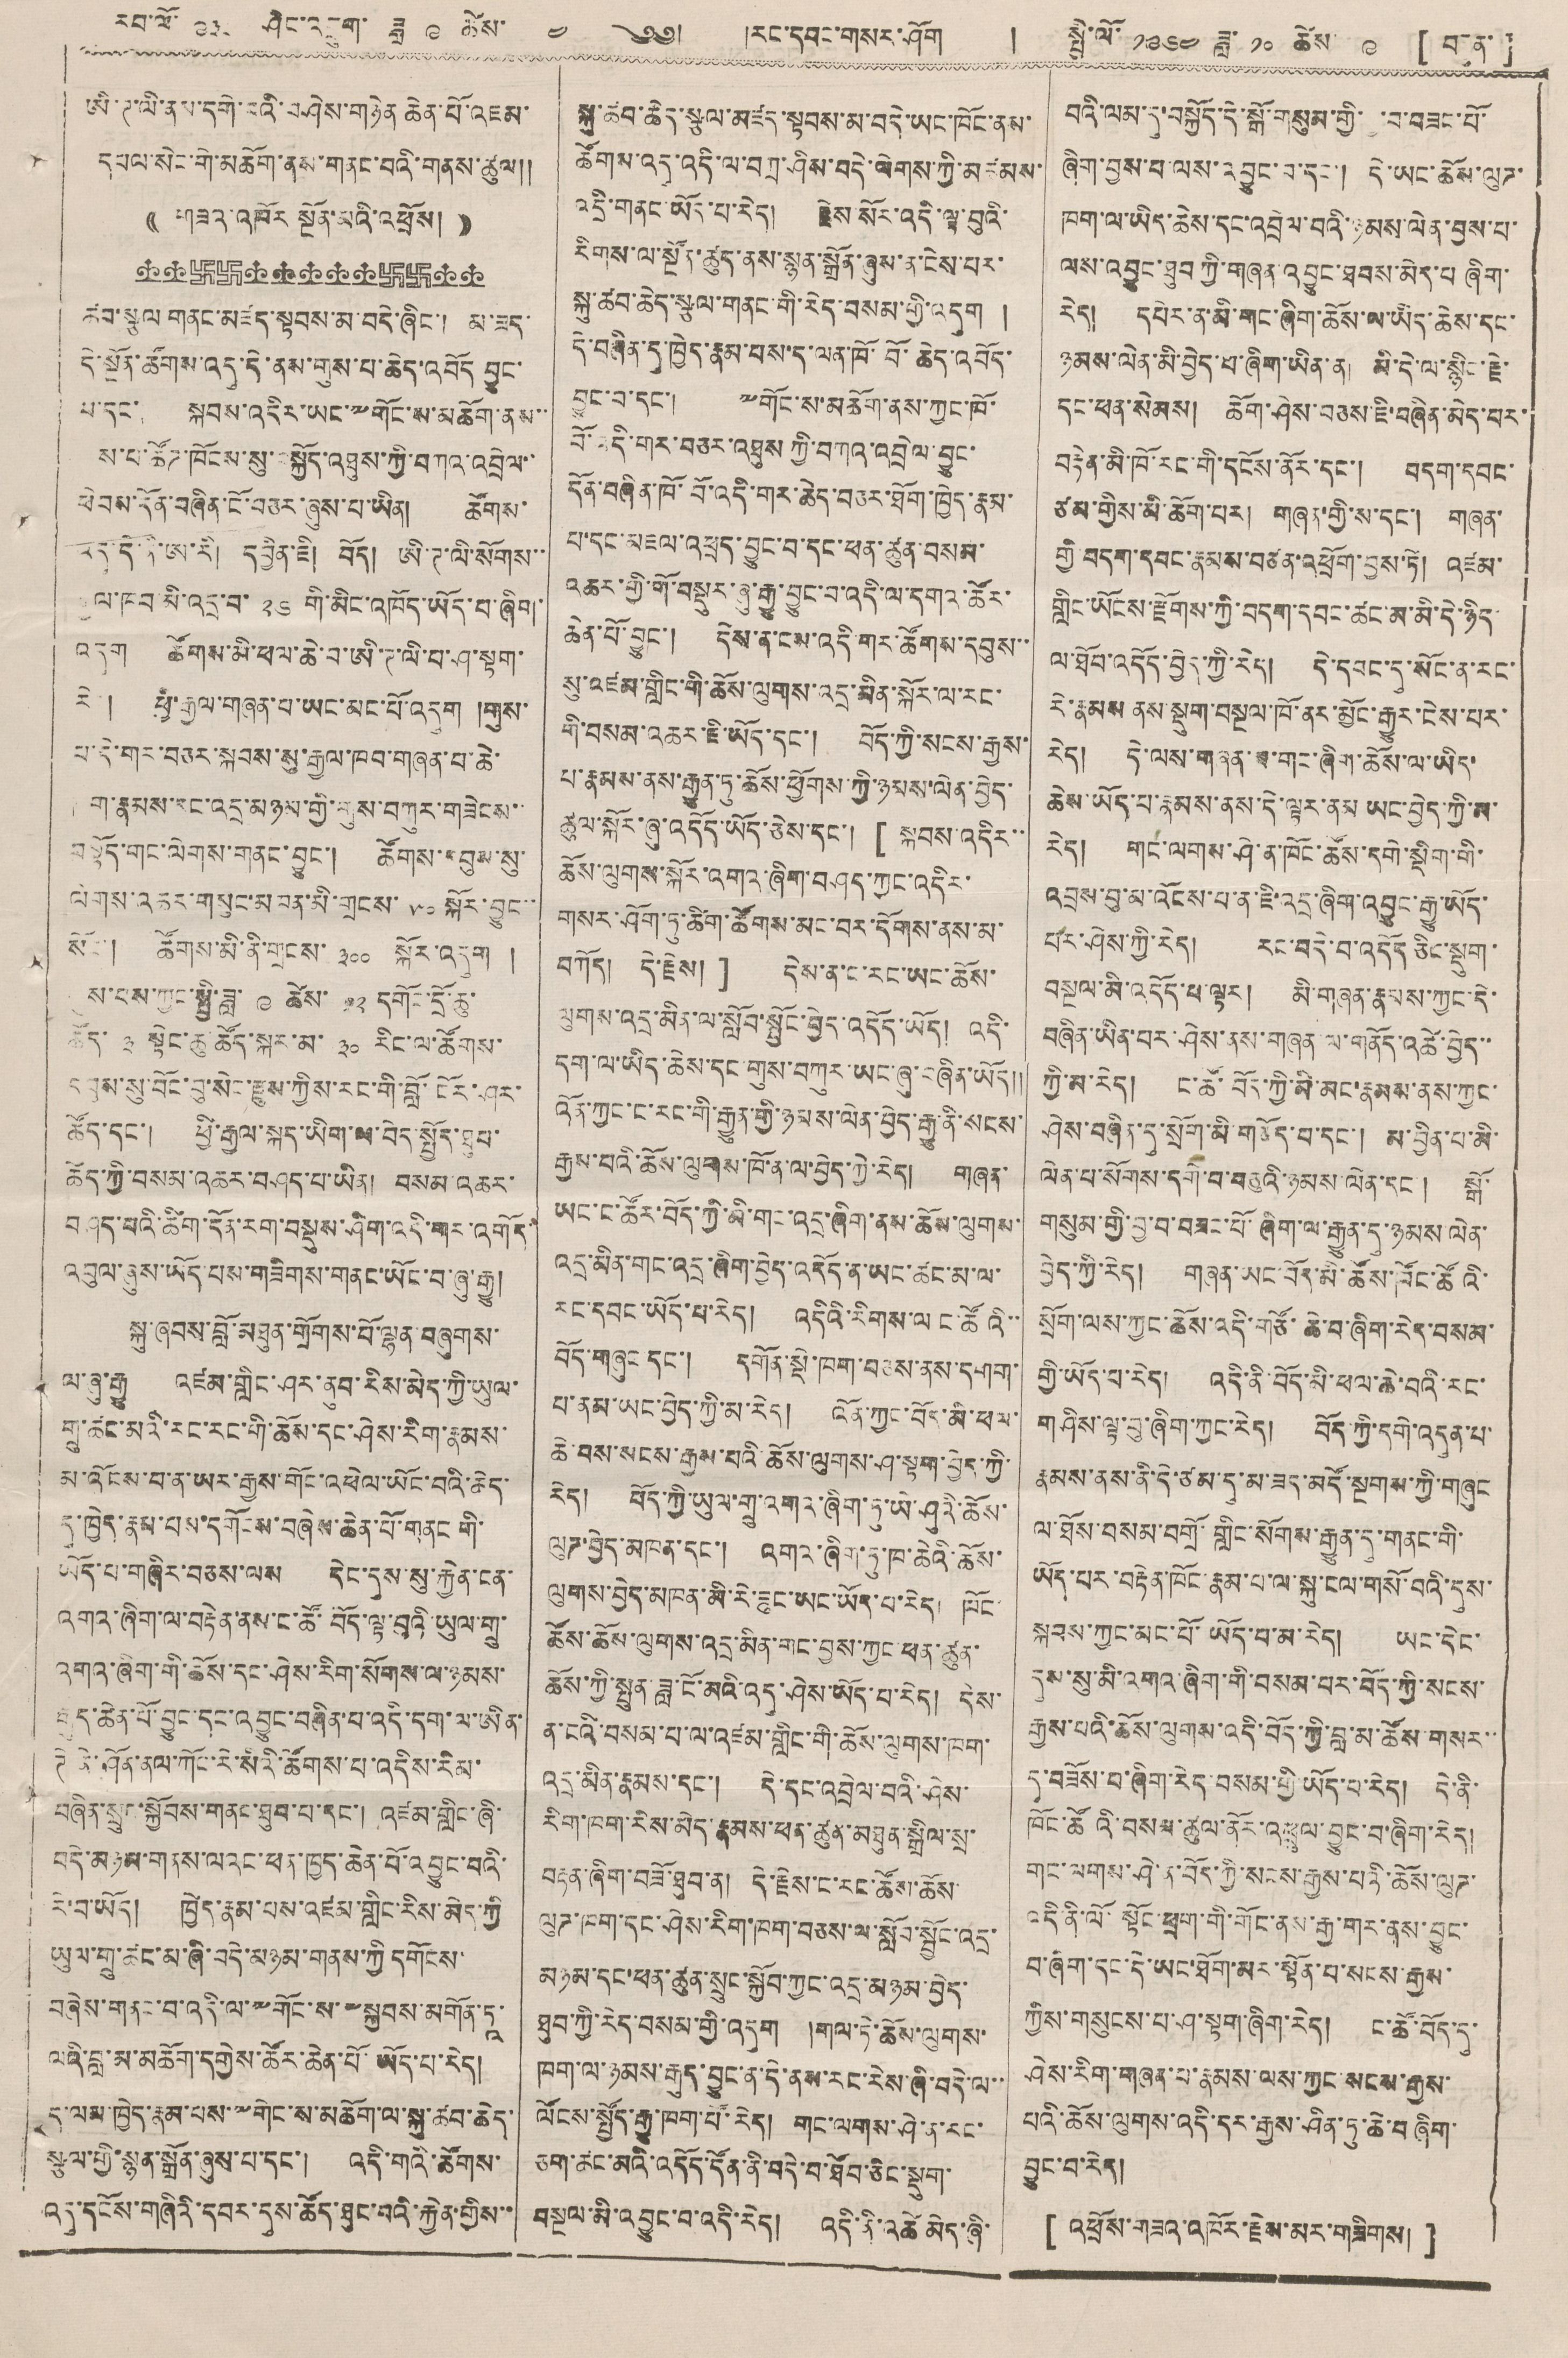རབ་ལོ་ ༩༣༨ ཤིང་འབྲུག་ ཟླ་ ༩ ཚེས ༤ ༄༅། །རང་དབང་གསར་ཤོག །སྤྱི་ལོ་ ༡༩༦༤ ཟླ་ ༡༠ ཚེས་ ༩ [ བདུན་ ]
ཨི་ཊ་ལི་ནས་དགེ་བའི་བཤེས་གཉེན ཆེན་པོ་འཇམ་
དཔལ་སེང་གེ་མཆོག་ནས་གནང་བའི་གནས་ཚུལ།།
(( གཟའ་འཁོར སྔོན་མའི་འཕྲོས། ))
ཚབ་ལྩལ གནང་མཛད་སྟབས་མ་བདེ་ཞིང་། མ་ཟད་
དེ་སྔོན་ཚོགས་འདུ་དེ་ནས་གུས་པ་ཆེད་འབོད བྱུང་
པ་དང་། སྐབས་འདིར་ཡང་༸གོང་ས་མཆོག་ནས་་
ས་པ་ཚོཊ་ཁོངས་སུ་བསྐྱོད་འཐུས་ཀྱི་བཀའ་འབྲེལ་་
ཕེབས་དོན་བཞིན་ངོ་བཅར་ཞུས་པ་ཡིན། ཚོགས་
འདུ་དེ་ནི་ཨ་རི། དབྱིན་ཇི། བོད། ཨི་ཊ་ལི་སོགས་་
རྒྱལ་ཁབ་མི་འདྲ་བ་ ༢༦ གི་མིང་འཁོད་ཡོད་པ་ཞིག་
འདུག ཚོགས་མི་ཕལ་ཆེ་བ་ཨི་ཊ་ལི་པ་ཤ་སྟག་
རེད། ཕྱི་རྒྱལ་གཞན་པ་ཡང་མང་པོ་འདུག །གུས་
པ་དེ་གར་བཅར་སྐབས་སུ་རྒྱལ་ཁབ་གཞན་པ་ཆེ་
ག་རྣམས་དང་འདྲ་མཉམ་གྱི་གུས་བཀུར་གཟེངས་་
བསྟོད་གང་ལེགས་གནང་བྱུང་། ཚོགས་དབུས་སུ་
ལེགས་འཆར་གསུང་མཁན་མི་གྲངས་ ༥༠ སྐོར་བྱུང་་
སོང་། ཚོགས་མི་ནི་གྲངས་ ༣༠༠ སྐོར་འདུག །
དུས་པས་ཀྱང་སྤྱི་ཟླ་ ༩ ཚེས་ ༡༢ དགོང་དྲི་ཆུ་
ཚོད་ ༣ སྟེང་ཆུ་ཚོད་སྐར་མ་ ༣༠ རིང་ལ་ཚོགས་
དབུས་སུ་བོང་བུ་སེང་རྫུས་ཀྱིས་རང་གི་བློ་ངོར་ཤར་
ཚོད་དང་། ཕྱི་རྒྱལ་སྐད་ཡིག་བདེ་སྤྱོད་ཐུབ་
ཆོད་ཀྱི་བསམ་འཆར་བཤད་པ་ཡིན། བསམ འཆར་
བཤད་པའི་ཚོག་དོན་རག་བསྡུས་ཤིག་འདི་གར་འགོད་
འབུལ་ཞུས་ཡོད་པས་གཟིགས་གནང་ཡོང་བ་ཞུ་རྒྱུ།
སྐུ་ཞབས་བློ་མཐུན་གྲོགས་པོ་ལྷན་བཞུགས་
ལ་ཞུ་རྒྱུ འཛམ་གླིང་ཤར་ནུབ་རིས་མེད་ཀྱི་ཡུལ་
གྲུ་ཚང་མའི་རང་རང་གི་ཆོས་དང་ཤེས་རིག་རྣམས་
མ་འོངས་པ་ན་ཡར་རྒྱས་གོང་འཕེལ་ཡོང་བའི་ཆེད་
དུ་ཁྱེད་རྣམ་པས་དགོངས་བཞེས་ཆེན་པོ་གནང གི་
ཡོད་པ་གཞིར་བཅས་ལས དེང་དུས་སུ་རྐྱེན་ངན་
འགའ་ཞིག་ལ་བརྟེན་ནས་ང་ཚོ་བོད་ལྟ་བུའི་ཡུལ་གྲུ་
འགའ་ཞིག་གི་ཆོས་དང་ཤེས་རིག་སོགས་ལ་ཉམས་
རྒུད་ཆེན་པོ་བྱུང་དང་འབྱུང་བཞིན་པ་འདི་དག་ལ་ཨིན་
ཊེ་ནེ་ཤོན་ནལ་ཀོང་རེ་སིའི་ཚོགས་པ་འདིས་རིམ་
བཞིན་སྲུང་སྐྱོབས་གནང་ཐུབ་པ་དང་། འཛམ་གླིང་ཞི་
བདེ་མཉམ་གནས་ལའང་ཕན་ཁྱད་ཆེན་པོ་འབྱུང་བའི་
རེ་བ་ཡོད། ཁྱེད་རྣམ་པས་འཛམ་གླིང་རིས་མེད་ཀྱི
ཡུལ་གྲུ་ཚང་མ་ཞི་བདེ་མཉམ་གནས་ཀྱི དགོངས་
བཞེས་གནང་བ་འདི་ལ་༸གོང་ས་༸སྐྱབས་མགོན་ཏཱ་
ལའི་བླ་མ་མཆོག་དགྱེས་ཚོར་ཆེན་པོ་ཡོད་པ་རེད།
ད་ལམ་ཁྱེད་རྣམ་པས་༸གོང་ས་མཆོག་ལ་སྐུ་ཚབ་ཆེད་
སྩལ་གྱི་སྙན་སྒྲོན་ཞུས་པ་དང་། འདི་གའི་ཚོགས་
འདུ་དངོས་གཞིའི་དབར་དུས་ཚོད་ཐུང་བའི་རྐྱེན་གྱིས་་
སྐུ་ཚབ་ཆེད་སྩལ་མཛད་སྟབས་མ་བདེ་ཡང་ཁོང་ནས་
ཚོགས་འདུ་འདི་ལ་བཀྲ་ཤིས་བདེ་ལེགས་ཀྱི་མཚམས་
འདྲི་གནང་ཡོད་པ་རེད། རྗེས་སོར་འདི་ལྟ་བུའི་
རིགས་ལ་སྔོན་ཚུད་ནས་སྙན་སྒྲོན་ཞུས་ན་ངེས་པར་
སྐུ་ཚབ་ཆེད་སྩལ་གནང་གི་རེད་བསལ་གྱི་འདུག །
དེ་བཞིན་དུ་ཁྱེད་རྣམ་པས་ད་ལན་ཁོ་བོ་ཆེད་འབོད་
བྱུང་བ་དང་། ༸གོང་ས་མཆོག་ནས་ཀྱང་ཁོ་
བོ་འདི་གར་བཅར་འཐུས ཀྱི་བཀའ་འབྲེལ་བྱུང་
དོན་བཞིན་ཁོ་བོ་འདི་གར་ཆེད་བཅར་ཐོག་ཁྱེད་རྣམ་
པ་དང་འཇམ་འཕྲད་བྱུང་བ་དང་ཕན་ཚུན་བསམ་
འཆར་གྱི་གོ་བསྡུར་ཞུ་རྒྱུ་བྱུང་བ་འདི་ལ་དགའ་ཚོར་
ཆེན་པོ་བྱུང་། དེས་ན་ངས་འདི་གར་ཚོགས་དབུས་་
སུ་འཛམ་གླིང་གི་ཆོས་ལུགས་འདྲ་མིན་སྐོར་ལ་རང་
གི་བསམ་འཆར་ཇི་ཡོད་དང་། བོད་ཀྱི་སངས་རྒྱས་
པ་རྣམས་ནས་རྒྱུན་ཏུ་ཆོས་ཕྱོགས་ཀྱི་ཉམས་ལེན་བྱེད་
ཚུལ་སྐོར་ཞུ་འདོད་ཡོད་ཅེས་དང་། [ སྐབས་འདིར་་
ཆོས་ལུགས་སྐོར་འགའ་ཞིག་བཤད་ཀྱང་འདིར་
གསར་ཤོག་ཏུ་ཚིག་ཚོགས་མང་བར་དོགས་ནས་མ་
བཀོད། དེ་རྗེས། ] དེས་ན་ང་རང་ཡང་ཆོས་
ལུགས་འདྲ་མིན་ལ་སློབ་སྦྱོང་བྱེད་འདོད་ཡོད། འདི་
དག་ལ་ཡིད་ཆེས་དང་གུས་བཀུར་ཡང་ཞུ་བཞིན་ཡོད།།
འོན་ཀྱང་ང་རང་གི་རྒྱུན་གྱི་ཉམས་ལེན་བྱེད་རྒྱུ་ནི་སངས་
རྒྱས་པའི་ཆོས་ལུགས་ཁོ་ན་བྱེད་ཀྱི་རེད། གཞན་
ཡང་ང་ཚོར་བོད་ཀྱི་མི་གང་འདྲ་ཞིག་ནས་ཆོས་ལུགས་
འདྲ་མིན་གང་འདྲ་ཞིག་བྱེད་འདོད་ན་ཡང་ཚང་མ་ལ་
རང་དབང་ཡོད་པ་རེད། འདིའི་རིགས་ལ ང་ཚོའི་་
བོད་གཞུང དང་། དགོན་སྡེ་ཁག་བཅས་ནས་དགག་
པ་ནམ་ཡང་བྱེད་ཀྱི་མ་རེད། འོན་ཀྱང་བོད་མི་ཕལ་
ཆེ་བས་སངས་རྒྱས་པའི་ཆོས་ལུགས་ཤ་སྟག་བྱེད་ཀྱི་
རེད། བོད་ཀྱི་ཡུལ་གྲུ་འགའ་ཞིག་ཏུ་ཡེ་ཤུའི་ཆོས་
ལུཊ་བྱེད་མཁན་དང་། འགའ་ཞིག་ཏུ་ཁ་ཆེའི་ཆོས་
ལུགས་བྱེད་མཁན་མི་རེ་ཟུང་ཡང་ཡོད་པ་རེད། ཁོང་
ཚོས་ཆོས་ལུགས་འདྲ་མིན་གང་བྱས་ཀྱང་ཕན་ཚུན་
ཆོས་ཀྱི་སྤུན་ཟླ་ངོ་མའི་འདུ་ཤེས་ཡོད་པ་རེད། དེས་
ན་ངའི་བསམ་པ་ལ་འཛམ་གླིང་གི་ཆོས་ལུགས་ཁག་
འདྲ་མིན་རྣམས་དང་། དེ་དང་འབྲེལ་བའི་ཤེས་
རིག་ཁག་རིས་མེད་རྣམས་ཕན་ཚུན་མཐུན་སྒྲིལ་སྲ་
བརྟན་ཞིག་བཟོ་ཐུབ་ན། དེ་རྗེས་ང་རང་ཚོས་ཆོས་
ལུཊ་ཁག་དང་ཤེས་རིག་ཁག་བཅས་ལ་སློབ་སྦྱོང་འདྲ་
མཉམ་དང་ཕན་ཚུན་སྲུང་སྐྱོབ་ཀྱང་འདྲ་མཉམ་བྱེད་
ཐུབ་ཀྱི་རེད་བསམ་གྱི་འདུག །གལ་ཏེ་ཆོས་ལུགས་
ཁག་ལ་ཉམས་རྒུད་བྱུང་ན་དེ་ནས་རང་རེས་ཞི་བདེ་ལ་་
ལོངས་སྤྱོད་རྒྱུ་ཁག་པོ་རེད། གང་ལགས་ཤེ་ན་རང་
ཅག་ཚང་མའི་འདོད་དོན་ནི་བདེ་བ་ཐོབ་ཅིང་སྡུག་
བསྔལ་མི་འབྱུང་བ་འདི་རེད། འདི་ནི་འཚེ མེད་ཞི་
བའི་ལམ་དུ་བསྐྱོད་དེ་སྒོ་གསུམ་གྱི་བྱ་བ་བཟང་པོ་
ཞིག་བྱས་པ་ལས་འབྱུང་བ་དང་། དེ་ཡང་ཆོས་ལུཊ་
ཁག་ལ་ཡིད་ཆེས་དང་འབྲེལ་བའི་ཉམས་ལེན་བྱས་པ་
ལས་འབྱུང་ཐུབ་ཀྱི་གཞན་འབྱུང་ཐབས་མེད་པ ཞིག་
རེད། དཔེར་ན་མི་གང་ཞིག་ཆོས་ལ་ཡིད་ཆེས་དང་
ཉམས་ལེན་མི་བྱེད་པ་ཞིག་ཡིན་ན། མི་དེ་ལ་སྙིང་རྗེ་
དང་ཕན་སེམས། ཆོག་ཤེས་བཅས་ཇི་བཞིན་མེད་པར་
བརྟེན་མི་ཁོ་རང་གི་དངོས་ནོར་དང་། བདག་དབང་
ཙམ་གྱིས་མི་ཆོག་པར། གཞན་གྱི་ས་དང་། གཞན་
གྱི བདག་དབང་རྣམས་བཙན་འཕྲོག་བྱས་ཏེ། འཛམ་
གླིང་ཡོངས་རྫོགས་ཀྱི་བདག་དབང་ཚང་མ་མི་དེ་ཉིད་
ལ་ཐོབ་འདོད་བྱེད་ཀྱི་རེད། དེ་དབང་དུ་སོང་ན་རང་
རེ་རྣམས ནས་སྡུག་བསྔལ་ཁོ་ནར་མྱོང་རྒྱུར་ངེས་པར་
རེད། དེ་ལས་གཞན་ཐ་གང་ཞིག་ཆོས་ལ་ཡིད་
ཆེས་ཡོད་པ་རྣམས་ནས་དེ་ལྟར་ནམ ཡང་བྱེད་ཀྱི་མ་
རེད། གང་ལགས་ཤེ་ན་ཁོང་ཚོས་དགེ་སྡིག་གི་
འབྲས་བུ་མ་འོངས་པ་ན་ཇི་འདྲ་ཞིག་འབྱུང་རྒྱུ་ཡོད་
པར་ཤེས་ཀྱི་རེད། རང་བདེ་བ་འདོད ཅིང་སྡུག་
བསྔལ་མི་འདོད་པ་ལྟར། མི་གཞན་རྣམས་ཀྱང་དེ་
བཞིན་ཡིན་པར་ཤེས་ནས་གཞན་ལ་གནོད་འཚེ་བྱེད་་
ཀྱི་མ་རེད། ང་ཚོ་བོད་ཀྱི་མི་མང་རྣམས་ནས་ཀྱང་
ཤེས་བཞིན་དུ་སྲོག་མི་གཅོད་པ་དང་། མ་བྱིན་པ་མི་
ལེན་པ་སོགས་དགེ་བ་བཅུའི་ཉམས་ལེན་དང ། སྒོ་
གསུམ་གྱི་བྱ་བ་བཟང་པོ་ཞིག་ལ་རྒྱུན་དུ་ཉམས་ལེན་
བྱེད་ཀྱི་རེད། གཞན་ཡང་བོད་མི་ཚོས་ཁོང་ཚོའི
སྲོག་ལས་ཀྱང་ཆོས་འདི་གཙོ་ཆེ་བ་ཞིག་རེད་བསམ་
གྱི་ཡོད་པ་རེད། འདི་ནི་བོད་མི་ཕལ་ཆེ་བའི་རང་
གཤིས་ལྟ་བུ་ཞིག་ཀྱང་རེད། བོད་ཀྱི་དགེ་འདུན་པ་
རྣམས་ནས་ནི་དེ་ཙམ་དུ་མ་ཟད་མདོ་སྔགས་ཀྱི་གཞུང
ལ་ཐོས་བསམ་བགྲོ་གླིང་སོགས་རྒྱུན་དུ་གནང་གི་
ཡོད་པར་བརྟེན་ཁོང་རྣམ་པ་ལ་སྐུ་ངལ་གསོ་བའི་དུས་
སྐབས་ཀྱང་མང་པོ་ཡོད་པ་མ་རེད། ཡང་དེང་
དུས་སུ་མི་འགའ་ཞིག་གི་བསམ་པར་བོད་ཀྱི་སངས་
རྒྱས་པའི་ཆོས་ལུགས་འདི་བོད་ཀྱི་བླ་མ་ཆོས་གསར་་
དུ་བཟོས་བ་ཞིག་ཏེད་བསམ་གྱི་ཡོད་པ་རེད། དེ་ནི་
ཁོང་ཚོའི་བསམ་ཚུལ་ནོར་འཕྲུལ་བྱུང་བ་ཞིག་རེད།
གང་ལགས་ཤེ་ན་བོད་ཀྱི་སངས་རྒྱས་པའི་ཆོས་ལུཊ་
འདི་ནི་ལོ་སྟོང་ཕྲག་གི་གོང་ནས་རྒྱ་གར་ནས་བྱུང་
བ་ཞིག་དང་དེ་ཡང་ཐོག་མར་སྟོན་པ་སངས་རྒྱས་
ཀྱིས་གསུངས་པ་ཤ་སྟག་ཤིག་རེད། ང་ཚོ་བོད་དུ་
ཤེས་རིག་གཞན་པ་རྣམས་ལས་ཀྱང་སངས་རྒྱས་
པའི་ཆོས་ལུགས་འདི་དར་རྒྱས་ཤིན་ཏུ་ཆེ་བ ཞིག་
བྱུང་བ་རེད།
[ འཕྲོས་གཟའ་འཁོར་རྗེས་མར་གཟིགས། ]
